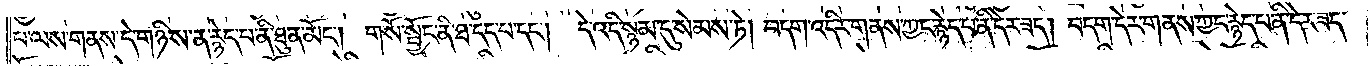པ་ལས་གནས་དེ་གཉིས་ན་རྙེད་པ་ནི་ཐུན་མོང༌། གསོ་སྦྱོང་ནི་ཐ་དད་པ་དང༌། དེ་འདི་སྙམ་དུ་སེམས་ཏེ། བདག་འདིར་གནས་ཀྱང་རྙེད་པ་ནི་དེར་ཟད། བདག་དེར་གནས་ཀྱང་རྙེད་པ་ནི་དེར་ཟད་
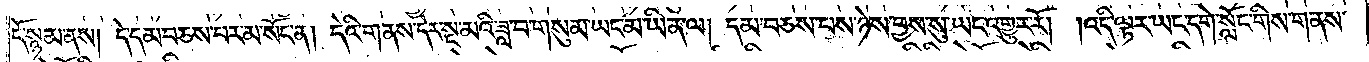དོ་སྙམ་ནས། དེ་དམ་བཅས་པར་མ་སོང་ན། དེའི་གནས་དེར་སྔ་མའི་ཟླ་བ་གསུམ་ཡང་མ་ཡིན་ལ། དམ་བཅས་པས་ཉེས་བྱས་སུ་ཡང་འགྱུར་རོ། །འདི་ལྟར་ཡང་དགེ་སློང་གིས་གནས་
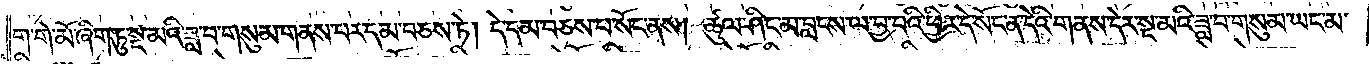ག་གེ་མོ་ཞིག་ཏུ་སྔ་མའི་ཟླ་བ་གསུམ་གནས་པར་དམ་བཅས་ཏེ། དེ་དམ་བཅས་པ་སོང་ནས། ཚུལ་ཤིང་མ་བླངས་ལ་བྱ་བའི་ཕྱིར་དེ་སོང་ན་དེའི་གནས་དེར་སྔ་མའི་ཟླ་བ་གསུམ་ཡང་མ་
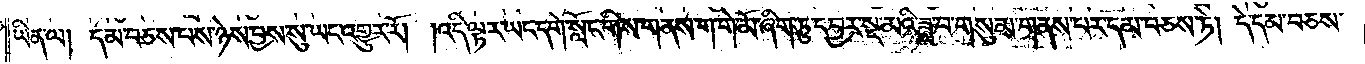ཡིན་ལ། དམ་བཅས་པས་ཉེས་བྱས་སུ་ཡང་འགྱུར་རོ། །འདི་ལྟར་ཡང་དགེ་སློང་གིས་གནས་ག་གེ་མོ་ཞིག་ཏུ་དབྱར་སྔ་མའི་ཟླ་བ་གསུམ་གནས་པར་དམ་བཅས་ཏེ། དེ་དམ་བཅས་
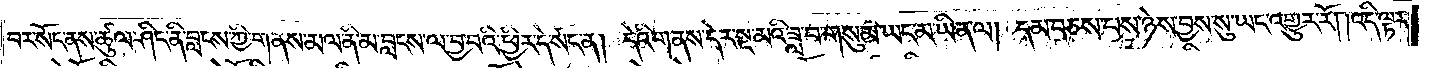བར་སོང་ནས་ཚུལ་ཤིང་ནི་བླངས་ཀྱི་གནས་མལ་ནི་མ་བླངས་ལ་བྱ་བའི་ཕྱིར་དེ་སོང་ན། དེའི་གནས་དེར་སྔ་མའི་ཟླ་བ་གསུམ་ཡང་མ་ཡིན་ལ། དམ་བཅས་པས་ཉེས་བྱས་སུ་ཡང་འགྱུར་རོ། །འདི་ལྟར་
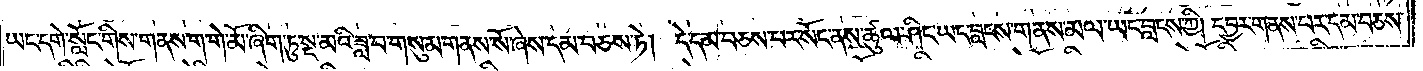ཡང་དགེ་སློང་གིས་གནས་ག་གེ་མོ་ཞིག་ཏུ་སྔ་མའི་ཟླ་བ་གསུམ་གནས་སོ་ཞེས་དམ་བཅས་ཏེ། དེ་དམ་བཅས་པར་སོང་ནས་ཚུལ་ཤིང་ཡང་བླངས་གནས་མལ་ཡང་བླངས་ཀྱི། དབྱར་གནས་པར་དམ་བཅས་
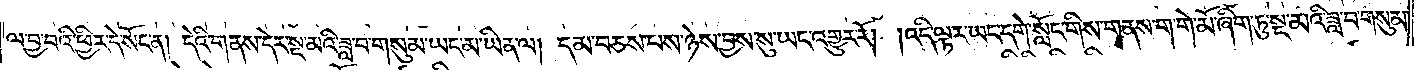ལ་བྱ་བའི་ཕྱིར་དེ་སོང་ན། དེའི་གནས་དེར་སྔ་མའི་ཟླ་བ་གསུམ་ཡང་མ་ཡིན་ལ། དམ་བཅས་པས་ཉེས་བྱས་སུ་ཡང་འགྱུར་རོ། །འདི་ལྟར་ཡང་དགེ་སློང་གིས་གནས་ག་གེ་མོ་ཞིག་ཏུ་སྔ་མའི་ཟླ་བ་གསུམ་
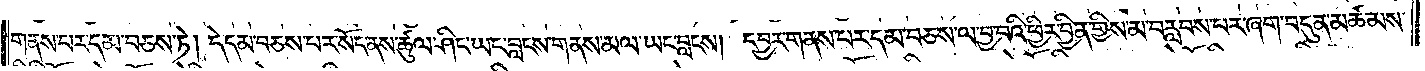གནས་པར་དམ་བཅས་ཏེ། དེ་དམ་བཅས་པར་སོང་ནས་ཚུལ་ཤིང་ཡང་བླངས་གནས་མལ་ཡང་བླངས། དབྱར་གནས་པར་དམ་བཅས་ལ་བྱ་བའི་ཕྱིར་བྱིན་གྱིས་མ་བརླབས་པར་ཞག་བདུན་མཚམས་
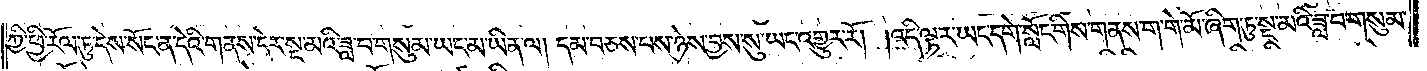ཀྱི་ཕྱི་རོལ་ཏུ་དེས་སོང་ན་དེའི་གནས་དེར་སྔ་མའི་ཟླ་བ་གསུམ་ཡང་མ་ཡིན་ལ། དམ་བཅས་པས་ཉེས་བྱས་སུ་ཡང་འགྱུར་རོ། །འདི་ལྟར་ཡང་དགེ་སློང་གིས་གནས་ག་གེ་མོ་ཞིག་ཏུ་སྔ་མའི་ཟླ་བ་གསུམ་
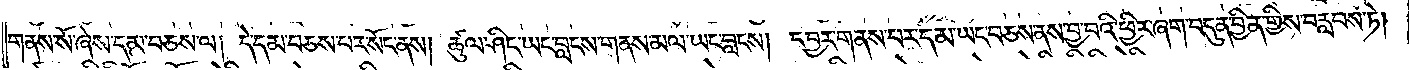གནས་སོ་ཞེས་དམ་བཅས་ལ། དེ་དམ་བཅས་པར་སོང་ནས། ཚུལ་ཤིང་ཡང་བླངས་གནས་མལ་ཡང་བླངས། དབྱར་གནས་པར་དམ་ཡང་བཅས་ནས་བྱ་བའི་ཕྱིར་ཞག་བདུན་བྱིན་གྱིས་བརླབས་ཏེ།
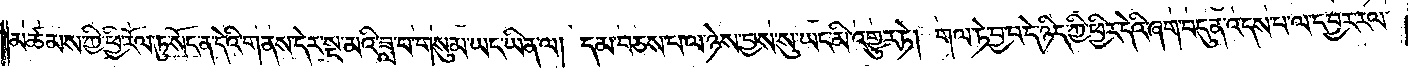མཚམས་ཀྱི་ཕྱི་རོལ་ཏུ་སོང་ན་དེའི་གནས་དེར་སྔ་མའི་ཟླ་བ་གསུམ་ཡང་ཡིན་ལ། དམ་བཅས་པ་ལ་ཉེས་བྱས་སུ་ཡང་མི་འགྱུར་ཏེ། གལ་ཏེ་བྱ་བ་དེ་ཉིད་ཀྱི་ཕྱིར་དེའི་ཞག་བདུན་འདས་པ་ལ་དབྱར་རལ་
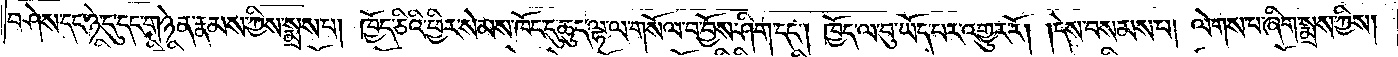བཤེས་དང་ཉེ་དུ་དང་གཉེན་རྣམས་ཀྱིས་སྨྲས་པ། ཁྱོད་ཅིའི་ཕྱིར་སེམས་ཁོང་དུ་ཆུད་ལྷ་ལ་གསོལ་བ་བྱོས་ཤིག་དང༌། ཁྱོད་ལ་བུ་ཡོད་པར་འགྱུར་རོ། །དེས་བསམས་པ། ལེགས་བ་ཞིག་སྨྲས་ཀྱིས།
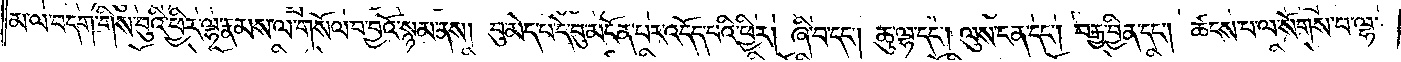མ་ལ་བདག་གིས་བུའི་ཕྱིར་ལྷ་རྣམས་ལ་གསོལ་བ་བྱའོ་སྙམ་ནས། བུ་མེད་བ་དེ་བུ་མངོན་པར་འདོད་པའི་ཕྱིར། ཞི་བ་དང༌། ཆུ་ལྷ་དང༌། ལུས་ངན་དང༌། བརྒྱ་བྱིན་དང༌། ཚངས་པ་ལ་སོགས་པ་ལྷ་
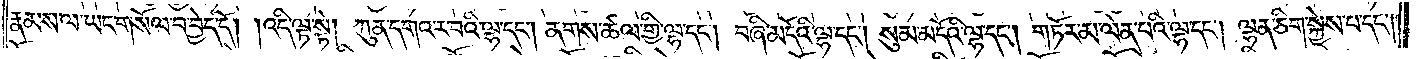རྣམས་ལ་ཡང་གསོལ་བ་བྱེད་དོ། །འདི་ལྟ་སྟེ། ཀུན་དགའ་ར་བའི་ལྷ་དང༌། ནགས་ཚལ་གྱི་ལྷ་དང༌། བཞི་མདོའི་ལྷ་དང༌། སུམ་མདོའི་ལྷ་དང༌། གཏོར་མ་ལེན་པའི་ལྷ་དང༌། ལྷན་ཅིག་སྐྱེས་བ་དང༌།
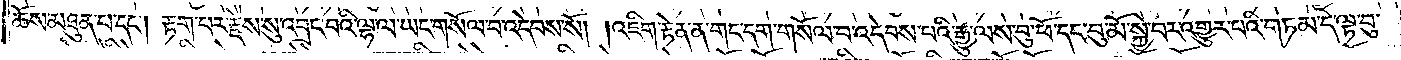ཆོས་མཐུན་པ་དང༌། རྟག་པར་རྗེས་སུ་འབྲང་བའི་ལྷ་ལ་ཡང་གསོལ་བ་འདེབས་སོ། །འཇིག་རྟེན་ན་གང་དག་གསོལ་བ་འདེབས་པའི་རྒྱུ་ལས་བུ་ཕོ་དང་བུ་མོ་སྐྱེ་བར་འགྱུར་པའི་གཏམ་དེ་ལྟ་བུ་
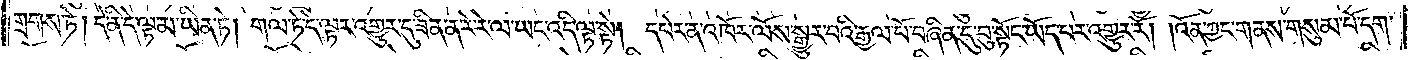གྲགས་ཏེ། དེ་ནི་དེ་ལྟ་མ་ཡིན་ཏེ། གལ་ཏེ་དེ་ལྟར་འགྱུར་དུ་ཟིན་ན་རེ་རེ་ལ་ཡང་འདི་ལྟ་སྟེ། དཔེར་ན་འཁོར་ལོས་སྒྱུར་བའི་རྒྱལ་པོ་བཞིན་དུ་བུ་སྟོང་ཡོད་པར་འགྱུར་རོ། །འོན་ཀྱང་གནས་གསུམ་པོ་དག་
